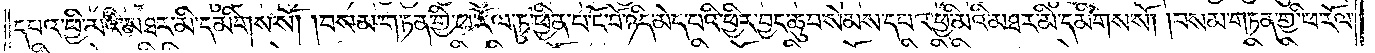དཔའ་ཕྱི་མའི་མཐར་མི་དམིགས་སོ། །བསམ་གཏན་གྱི་ཕ་རོལ་ཏུ་ཕྱིན་པ་ངོ་བོ་ཉིད་མེད་པའི་ཕྱིར་བྱང་ཆུབ་སེམས་དཔའ་ཕྱི་མའི་མཐར་མི་དམིགས་སོ། །བསམ་གཏན་གྱི་ཕ་རོལ་
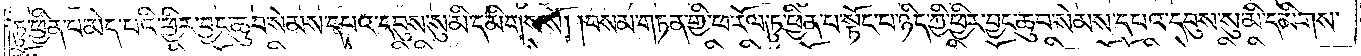ཏུ་ཕྱིན་པ་མེད་པའི་ཕྱིར་བྱང་ཆུབ་སེམས་དཔའ་དབུས་སུ་མི་དམིགས་སོ། །བསམ་གཏན་གྱི་ཕ་རོལ་ཏུ་ཕྱིན་པ་སྟོང་པ་ཉིད་ཀྱི་ཕྱིར་བྱང་ཆུབ་སེམས་དཔའ་དབུས་སུ་མི་དམིགས་
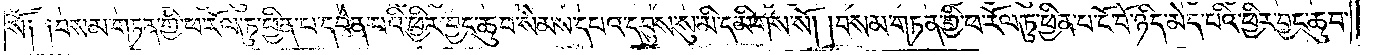སོ༑ ༑བསམ་གཏན་གྱི་ཕ་རོལ་ཏུ་ཕྱིན་པ་དབེན་པའི་ཕྱིར་བྱང་ཆུབ་སེམས་དཔའ་དབུས་སུ་མི་དམིགས་སོ། །བསམ་གཏན་གྱི་ཕ་རོལ་ཏུ་ཕྱིན་པ་ངོ་བོ་ཉིད་མེད་པའི་ཕྱིར་བྱང་ཆུབ་
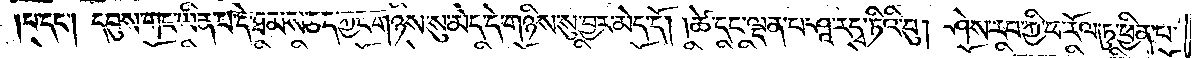པ་དང༌། དབུས་གང་ཡིན་པ་དེ་ཐམས་ཅད་ཀྱང་གཉིས་སུ་མེད་དེ་གཉིས་སུ་བྱར་མེད་དོ། །ཚེ་དང་ལྡན་པ་ཤཱ་རདྭ་ཏིའི་བུ། ཤེས་རབ་ཀྱི་ཕ་རོལ་ཏུ་ཕྱིན་པ་
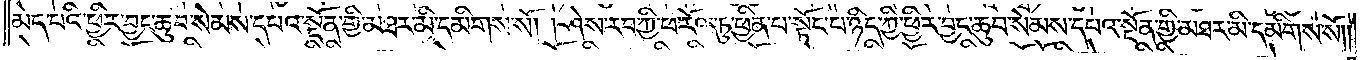མེད་པའི་ཕྱིར་བྱང་ཆུབ་སེམས་དཔའ་སྔོན་གྱི་མཐར་མི་དམིགས་སོ། །ཤེས་རབ་ཀྱི་ཕ་རོལ་ཏུ་ཕྱིན་པ་སྟོང་པ་ཉིད་ཀྱི་ཕྱིར་བྱང་ཆུབ་སེམས་དཔའ་སྔོན་གྱི་མཐར་མི་དམིགས་སོ༎
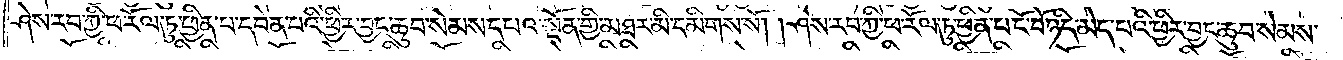ཤེས་རབ་ཀྱི་ཕ་རོལ་ཏུ་ཕྱིན་པ་དབེན་པའི་ཕྱིར་བྱང་ཆུབ་སེམས་དཔའ་སྔོན་གྱི་མཐར་མི་དམིགས་སོ། །ཤེས་རབ་ཀྱི་ཕ་རོལ་ཏུ་ཕྱིན་པ་ངོ་བོ་ཉིད་མེད་པའི་ཕྱིར་བྱང་ཆུབ་སེམས་
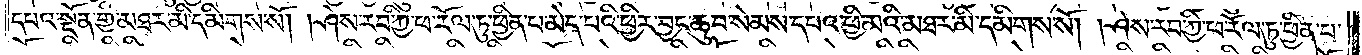དཔའ་སྔོན་གྱི་མཐར་མི་དམིགས་སོ། །ཤེས་རབ་ཀྱི་ཕ་རོལ་ཏུ་ཕྱིན་པ་མེད་པའི་ཕྱིར་བྱང་ཆུབ་སེམས་དཔའ་ཕྱི་མའི་མཐར་མི་དམིགས་སོ། །ཤེས་རབ་ཀྱི་ཕ་རོལ་ཏུ་ཕྱིན་པ་
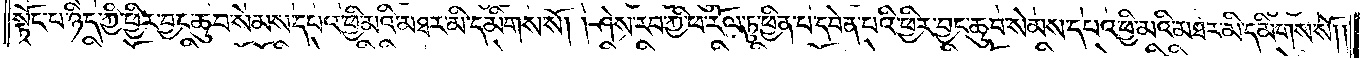སྟོང་པ་ཉིད་ཀྱི་ཕྱིར་བྱང་ཆུབ་སེམས་དཔའ་ཕྱི་མའི་མཐར་མི་དམིགས་སོ། །ཤེས་རབ་ཀྱི་ཕ་རོལ་ཏུ་ཕྱིན་པ་དབེན་པའི་ཕྱིར་བྱང་ཆུབ་སེམས་དཔའ་ཕྱི་མའི་མཐར་མི་དམིགས་སོ། །
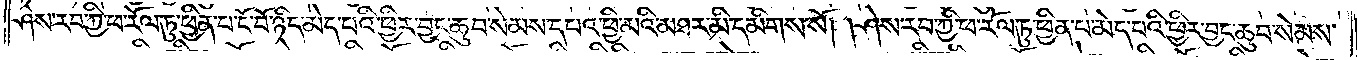ཤེས་རབ་ཀྱི་ཕ་རོལ་ཏུ་ཕྱིན་པ་ངོ་བོ་ཉིད་མེད་པའི་ཕྱིར་བྱང་ཆུབ་སེམས་དཔའ་ཕྱི་མའི་མཐར་མི་དམིགས་སོ། །ཤེས་རབ་ཀྱི་ཕ་རོལ་ཏུ་ཕྱིན་པ་མེད་པའི་ཕྱིར་བྱང་ཆུབ་སེམས་
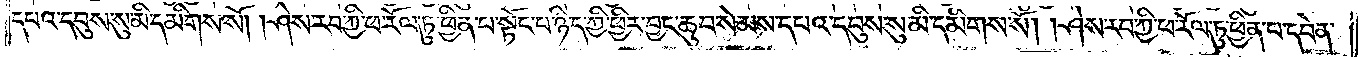དཔའ་དབུས་སུ་མི་དམིགས་སོ། །ཤེས་རབ་ཀྱི་ཕ་རོལ་ཏུ་ཕྱིན་པ་སྟོང་པ་ཉིད་ཀྱི་ཕྱིར་བྱང་ཆུབ་སེམས་དཔའ་དབུས་སུ་མི་དམིགས་སོ། །ཤེས་རབ་ཀྱི་ཕ་རོལ་ཏུ་ཕྱིན་པ་དབེན་
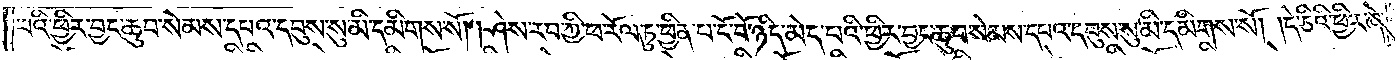པའི་ཕྱིར་བྱང་ཆུབ་སེམས་དཔའ་དབུས་སུ་མི་དམིགས་སོ། །ཤེས་རབ་ཀྱི་ཕ་རོལ་ཏུ་ཕྱིན་པ་ངོ་བོ་ཉིད་མེད་པའི་ཕྱིར་བྱང་ཆུབ་སེམས་དཔའ་དབུས་སུ་མི་དམིགས་སོ། །དེ་ཅིའི་ཕྱིར་ཞེ་
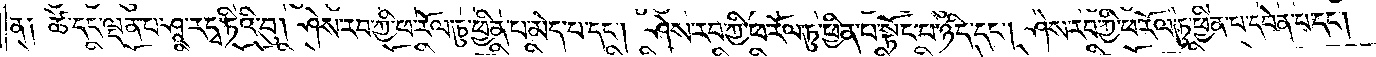ན༑ ཚེ་དང་ལྡན་པ་ཤཱ་རདྭ་ཏིའི་བུ། ཤེས་རབ་ཀྱི་ཕ་རོལ་ཏུ་ཕྱིན་པ་མེད་པ་དང༌། ཤེས་རབ་ཀྱི་ཕ་རོལ་ཏུ་ཕྱིན་པ་སྟོང་པ་ཉིད་དང༌། ཤེས་རབ་ཀྱི་ཕ་རོལ་ཏུ་ཕྱིན་པ་དབེན་པ་དང༌།
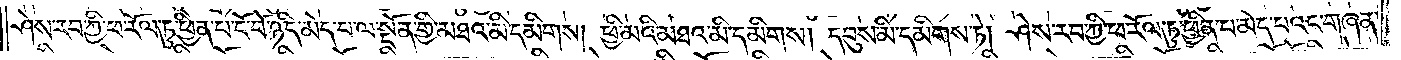ཤེས་རབ་ཀྱི་ཕ་རོལ་ཏུ་ཕྱིན་པ་ངོ་བོ་ཉིད་མེད་པ་ལ་སྔོན་གྱི་མཐའ་མི་དམིགས། ཕྱི་མའི་མཐའ་མི་དམིགས། དབུས་མི་དམིགས་ཏེ། ཤེས་རབ་ཀྱི་ཕ་རོལ་ཏུ་ཕྱིན་པ་མེད་པའང་གཞན་
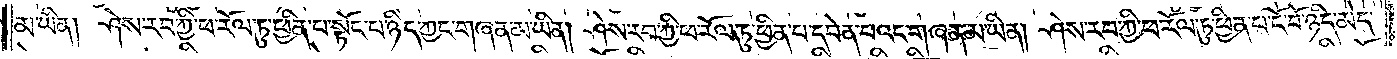མ་ཡིན། ཤེས་རབ་ཀྱི་ཕ་རོལ་ཏུ་ཕྱིན་པ་སྟོང་པ་ཉིད་ཀྱང་གཞན་མ་ཡིན། ཤེས་རབ་ཀྱི་ཕ་རོལ་ཏུ་ཕྱིན་པ་དབེན་པའང་གཞན་མ་ཡིན། ཤེས་རབ་ཀྱི་ཕ་རོལ་ཏུ་ཕྱིན་པ་ངོ་བོ་ཉིད་མེད་
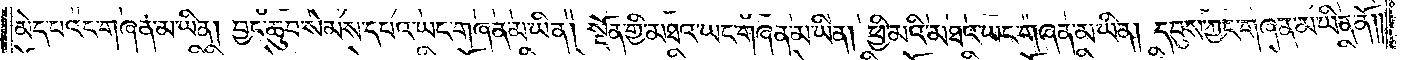པའང་གཞན་མ་ཡིན། བྱང་ཆུབ་སེམས་དཔའ་ཡང་གཞན་མ་ཡིན། སྔོན་གྱི་མཐའ་ཡང་གཞན་མ་ཡིན། ཕྱི་མའི་མཐའ་ཡང་གཞན་མ་ཡིན། དབུས་ཀྱང་གཞན་པ་ཡིན་ནོ། །
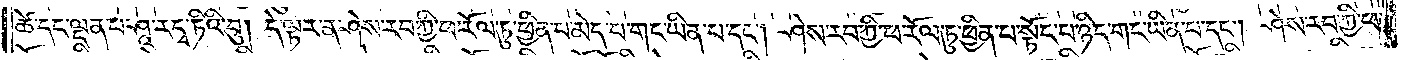ཚེ་དང་ལྡན་པ་ཤཱ་ར་དྭ་ཏིའི་བུ། དེ་ལྟར་ན་ཤེས་རབ་ཀྱི་ཕ་རོལ་ཏུ་ཕྱིན་པ་མེད་པ་གང་ཡིན་པ་དང༌། ཤེས་རབ་ཀྱི་ཕ་རོལ་ཏུ་ཕྱིན་པ་སྟོང་པ་ཉིད་གང་ཡིན་པ་དང༌། ཤེས་རབ་ཀྱི་ཕ་
